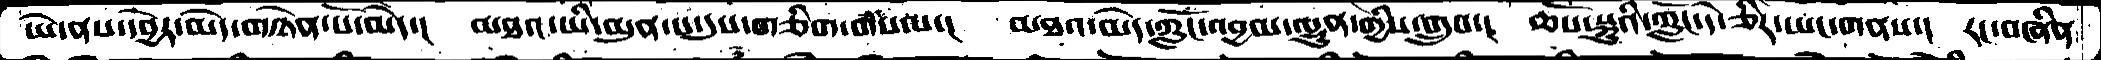ཡེ་ནས་དབྱེར་མེད་གཉེན་པོ་མེད་།  མཐའ་ཡི་མུན་པ་དུས་གཅིག་གསལ་།  མཐའ་མེད་ཀློང་འབྱམ་ལྷུན་གྱིས་གྲུབ་།  ཆོས་སྐུའི་ཀློང་དེ་ཅིར་ཡང་གནས་།  རང་བཞིན
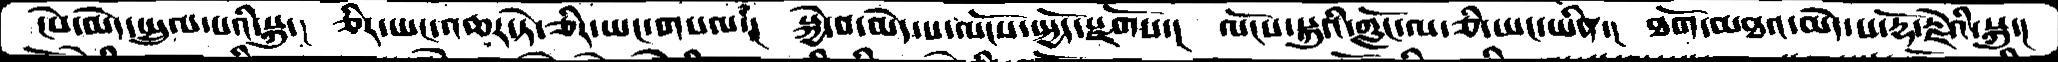ངེས་མེད་སྤྲུལ་པའི་སྐུ་།  ཅིར་ཡང་འཆར་ཏེ་ཅིར་ཡང་གསལ་།  སྐྱེ་བ་མེད་པ་ལོངས་སྤྱོད་སྫོགས་། ལོངས་སྐུའི་གློང་ལ་ཅི་ཡང་ཡིན་།  ཐོག་མཐའ་མེད་པ་རྡོ་རྗེའི་སྐུ་།
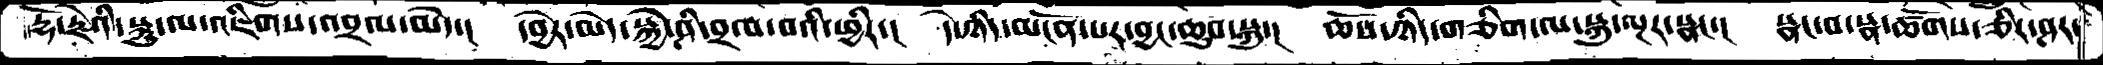རྡོ་རྗེའི་སྐུ་ལ་འཇིགས་འབྲལ་མེད་།  དབྱེར་མེད་སྐྱེ་ཤི་བྲལ་བའི་ཕྱིར་།  དེ་ཉིད་མངོན་པར་བྱང་ཆུབ་སྐུ་།  ཆོས་ཉིད་གཅིག་ལ་སྐུ་ལྔར་སྣང་།  སྣང་བ་སྣ་ཚོགས་ཅིར་ཤར་
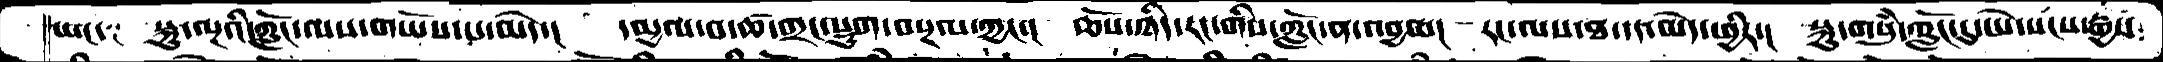ཡང༑  སྐུ་ལྔའི་ཀློང་ལས་གཡོས་པ་མེད་།  དམྱལ་བ་ཚ་གྲང་སྡུག་བསྔལ་ཀྱང་།  ཆོས་ཉིད་རང་གིས་ཀློང་ན་འབྱམ་།  རང་ལས་ཐ་དད་མེད་ཕྱིར་།  སྐུ་གསུཾ་ཀློང་དུ་ཡེ་སངས་རྒྱས
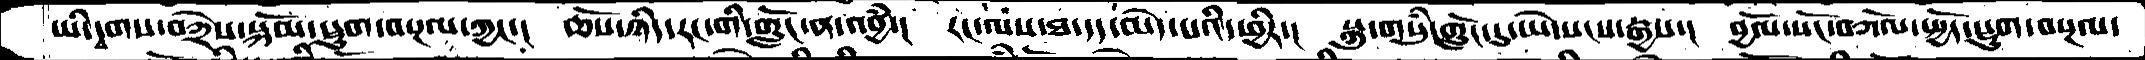ཡི་དྭགས་བཀྲེས་སྐོམ་སྡུག་བསྔལ་ཀྱང་།  ཆོས་ཉིད་རང་གི་གློང་ན་འབྱཾ་།  རང་ལས་ཐ་དད་མེད་པའི་ཕྱིར་།  སྐུ་གསུམ་གློང་དུ་ཡེ་སངས་རྒྱས་།  བྱོལ་སོང་བཀོལ་སྤྱོད་སྡུག་བསྔལ་
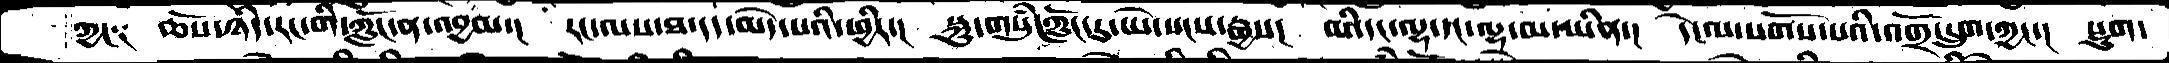ཀྱང༑  ཆོས་ཉིད་རང་གི་ཀློང་ན་འབྱམ་།  རང་ལས་ཐ་དད་མེད་པའི་ཕྱིར་།  སྐུ་གསུཾ་ཀློང་དུ་ཡེ་སངས་རྒྱས།  མི་དང་ལྷ་དང་ལྷ་མ་ཡིན་།  དེ་ལ་སོགས་པའི་འགྲོ་དྲུག་ཀྱང་། སྡུག་
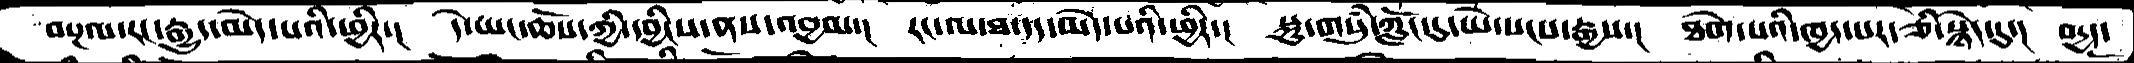བསྔལ་རང་རྒྱུད་མེད་པའི་ཕྱིར་།  དེ་ཡང་ཆོས་ཀྱི་དབྱིངས་ནས་འབྱམ་།  རང་ལ་ཐ་དད་མེད་པའི་ཕྱིར་།  སྐུ་གསུཾ་ཀློང་དུ་ཡེ་སངས་རྒྱས་།  ཐེག་པའི་ཁྱད་པར་ཅི་སྙེད་དུ་། བདྱད་
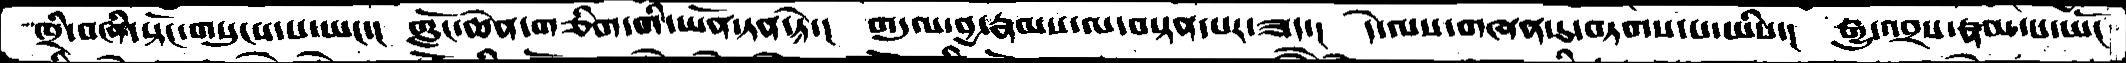ཁྲི་བཞི་སྟོང་གསུངས་པ་ཡང་།  གློང་ཆེན་གཅིག་གི་ཡོན་ཏན་ཏེ་།  གདུལ་བྱ་རྣམས་ལ་བསྟན་པར་ཟད་།  དེ་ལས་གཞན་དུ་བཏགས་པ་ཡིས་།  རྒྱུ་འབྲས་རྣམ་པ་ཡོང་
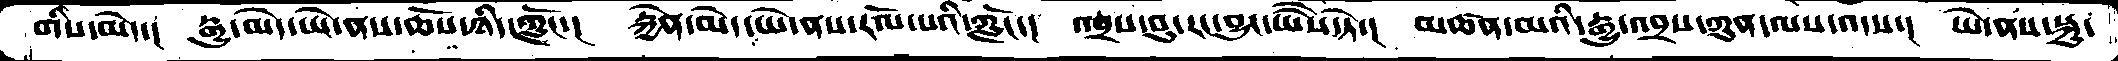གིས་མེད་།  རྒྱུ་མེད་ཡེ་ནས་ཆོས་ཉིད་ཀློང་།  རྐྱེན་མེད་ཡེ་ནས་རོལ་པའི་ཀློང་།  འབྲས་བུ་རང་བྱུང་ཡཻས་ཏེ་།  མཚན་མའི་རྒྱུ་འབྲས་ཀུན་ལས་འདས་།  ཡེ་ནས་སྐུ་
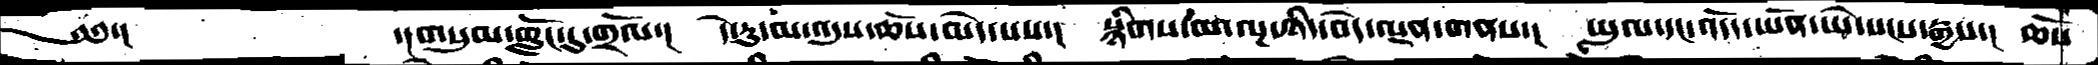༄༅་།     ་།གསུམ་གློང་དུ་གྲོལ་།  དེ་རུ་མ་འདུས་ཆོས་མེད་པས་།  སྙིགས་མ་ལྔ་ཉིད་བདེ་ལྡན་གནས་།  ཡུལ་དང་འདོད་ཡོན་ཡེ་སངས་རྒྱས་།  ཆོས་
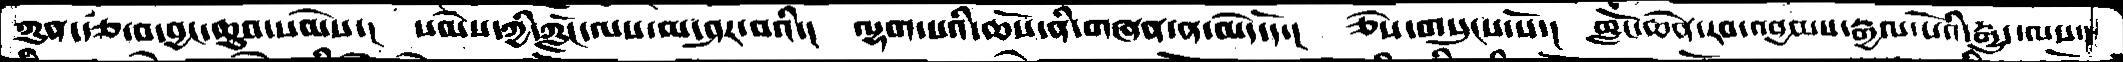ཀུན་རྩ་བ་བྱང་ཆུབ་སེམས་།  སེམས་ཀྱི་ཀློང་ལས་མ་ཤར་བའི་།  ལྷག་པའི་ཆོས་ནི་གཞན་ན་མེད་དོ་།  ཅེས་གསུངས་སོ་།  གློང་ཆེན་རབ་འབྱམས་རྒྱལ་པོའི་རྒྱུད་ལས་།
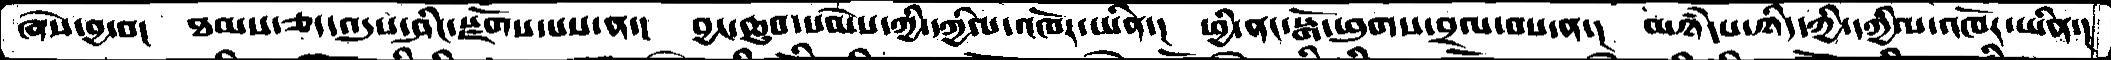ཞེས་བྱ་བ།  ཐམས་ཅད་འདུས་ཤིང་སྫོགས་པས་ན་།  བྱང་ཆུབ་སེམས་ཀྱི་དཀྱིལ་འཁོར་ཡིན་།  ཕྱི་ནང་སྒོ་ཕུགས་བྲལ་བས་ན་།  མཉཾ་པ་ཉིད་ཀྱི་དཀྱིལ་འཁོར་ཡིན་།
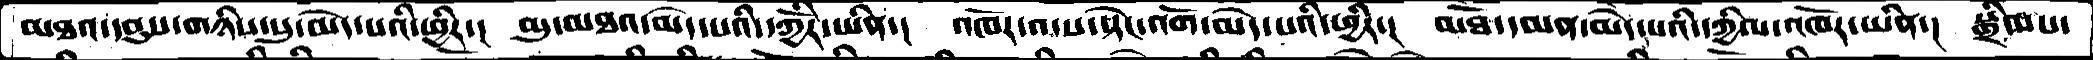མཐའ་དབུས་གཉིས་སུ་མེད་པའི་ཕྱིར་།  མུ་མཐའ་མེད་པའི་དཀྱོིར་ཡིན་།  འཁོར་འདས་སྟེང་འོག་མེད་པའི་ཕྱིར་།  མཐོ་དམན་མེད་པའི་དཀྱིལ་འཁོར་ཡིན་།  སྒྲིབ་པ་
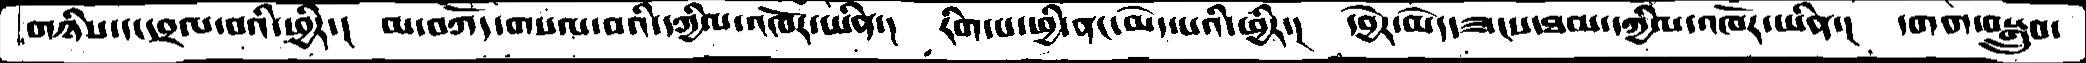གཉིས་དང་བྲལ་བའི་ཕྱིར་།  མ་བཀོད་གསལ་བའི་དཀྱིལ་འཁོར་ཡིན་།  རིག་པ་ཕྱི་ནང་མེད་པའི་ཕྱིར་།  དབྱེར་མེད་ཟངས་ཐལ་དཀྱིལ་འཁོར་ཡིན་།  དགག་བསྒྲུབ་
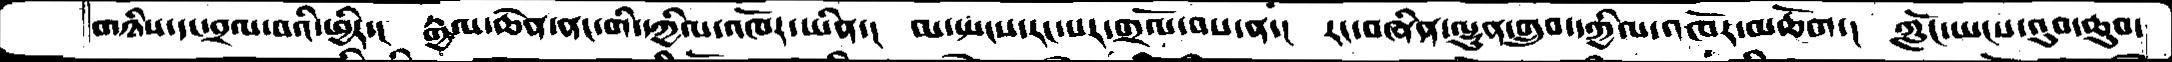གཉིས་དང་བྲལ་བའི་ཕྱིར་།  རྒྱལ་ཆེན་ནང་གི་དཀྱིལ་འཁོར་ཡིན་།  མ་སྤངས་རང་སར་གྲོལ་བས་ན་།  རང་བཞིན་ལྷུན་གྲུབ་དཀྱིལ་འཁོར་མཆོག་།  ཀློང་ཡངས་འུབ་ཆུབ་
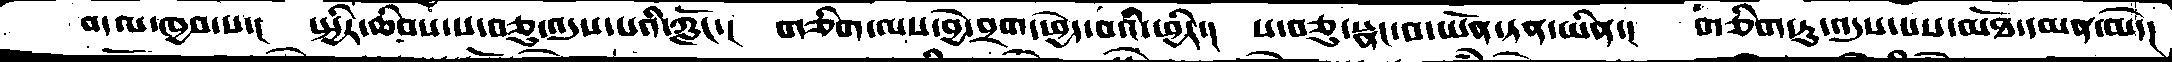བ་ལ་ཁྱབ་པ་།  སྤྱིར་ཆིབས་ས་བཅུ་འདུས་པའི་ཀློང་།  གཅིག་ལས་བྱེ་བྲག་ཕྱེད་བའི་ཕྱིར་།  ས་བཅུ་སྣང་བ་ཡོན་ཏན་ཡིན་།  གཅིག་ཏུ་འདུས་པས་མཐོ་དམན་མེད་།
